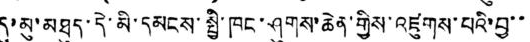དུ་མུ་མཐུད་དེ་མི་དམངས་སྤྱི་ཁང་ཤུགས་ཆེན་གྱིས་འཛུགས་པའི་བྱ་་
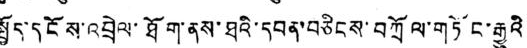སྤྱོད་དངོས་འབྲེལ་ཐོག་ནས་ཐའི་དབན་བཅིངས་བཀྲོལ་གཏོང་རྒྱུའི
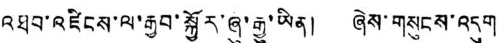འཐབ་འཛིངས་ལ་རྒྱབ་སྐྱོར་ཞུ་རྒྱུ་ཡིན། ཞེས་གསུངས་འདུག
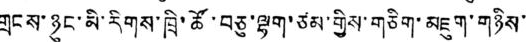གྲངས་ཉུང་མི་རིགས་ཁྲི་ཚོ་བཅུ་ལྷག་ཙམ་གྱིས་གཅིག་མཇུག་གཉིས་
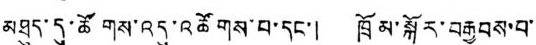མཐུད་དུ་ཚོགས་འདུ་འཚོགས་པ་དང་། ཁྲོམ་སྐོར་བརྒྱབས་བ་
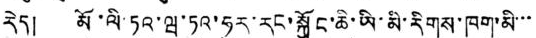རེད། མོ་ལི་ཏའ་ཝ་ཏའ་ཧུར་རང་སྐྱོང་ཆི་ཡི་མི་རིགས་ཁག་མི་་་
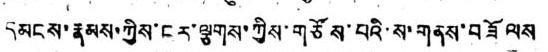དམངས་རྣམས་ཀྱིས་ངར་ལྕགས་ཀྱིས་གཙོས་པའི་ས་གནས་བཟོ ལས
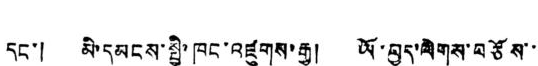དང་། མི་དམངས་སྤྱི་ཁང་འཛུགས་རྒྱུ། ཡོ་བྱད་ལེགས་བཙོས་་
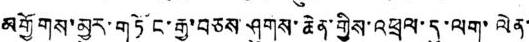མགྱོགས་མྱུར་གཏོང་རྒྱུ་བཅས་ཤུགས་ཆེན་གྱིས་འཕྲལ་དུ་ལག་ལེན་
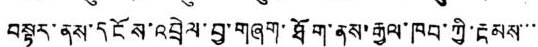བསྟར་ནས་དངོས་འབྲེལ་བྱ་གཞག་ཐོག་ནས་རྒྱལ་ཁབ་ཀྱི་རྔམས་་་
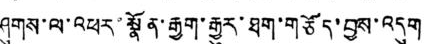ཤུགས་ལ་འཕར་སྣོན་རྒྱག་རྒྱུར་ཐག་གཙོད་བྱས་འདུག
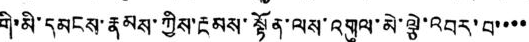གི་མི་དམངས་རྣམས་ཀྱིས་རྔམས་སྟོན་ལས་འགུལ་མེ་ལྕེ་འབར་བ་་་་
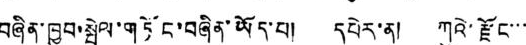བཞིན་ཁྱབ་སྤེལ་གཏོང་བཞིན་ཡོད་པ། དཔེར་ན། ཀུའེ་རྫོང་་་
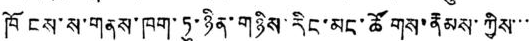ཁོངས་ས་གནས་ཁག་ཏུ་ཉིན་གཉིས་རིང་མང་ཚོགས་རྣམས་ཀྱི་་་
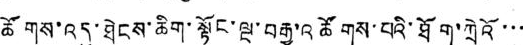ཚོགས་འདུ་ཐེངས་ཆིག་སྟོང་ལྔ་བརྒྱ་འཚོགས་པའི་ཐོག་ཀྲེའོ་་་
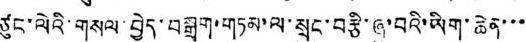ཙུང་ལེའི་གསལ་བྱེད་བསྒྲག་གཏམ་ལ་སྲུང་བརྩི་ཞུ་བའི་ཡིག་ཆེན་་་
